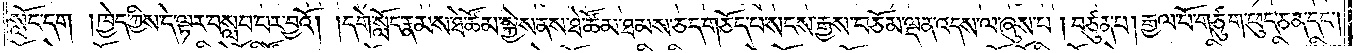སློང་དག །ཁྱེད་ཀྱིས་དེ་ལྟར་བསླབ་པར་བྱའོ། །དགེ་སློང་རྣམས་ཐེ་ཚོམ་སྐྱེས་ནས་ཐེ་ཚོམ་ཐམས་ཅད་གཅོད་པ་སངས་རྒྱས་བཅོམ་ལྡན་འདས་ལ་ཞུས་པ། བཙུན་པ། རྒྱལ་པོ་གཙུག་ཕུད་ཅན་དང༌།
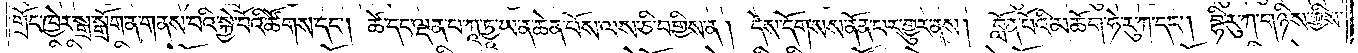གྲོང་ཁྱེར་སྒྲ་སྒྲོག་ན་གནས་པའི་སྐྱེ་བོའི་ཚོགས་དང༌། ཚེ་དང་ལྡན་པ་ཀཱ་ཏྱཱ་ཡ་ན་ཆེན་པོས་ལས་ཅི་བགྱིས་ན། དེས་དོག་སས་ནོན་པར་གྱུར་ནས། བློན་པོའི་མཆོག་ཧེ་རུ་ཀ་དང༌། བྷི་རུ་ཀ་གཉིས་ཀྱིས་
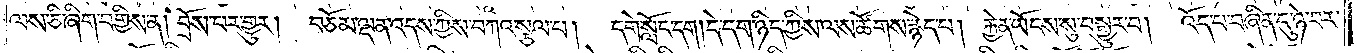ལས་ཅི་ཞིག་བགྱིས་ན། བྲོས་པར་གྱུར། བཅོམ་ལྡན་འདས་ཀྱིས་བཀའ་སྩལ་པ། དགེ་སློང་དག །དེ་དག་ཉིད་ཀྱིས་ལས་ཚོགས་རྙེད་པ། རྐྱེན་ཡོངས་སུ་བསྒྱུར་བ། འོད་པ་བཞིན་དུ་ཉེ་བར་
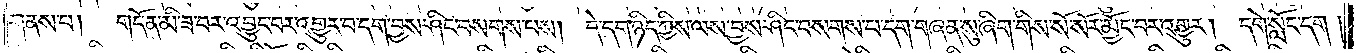གནས་པ། གདོན་མི་ཟ་བར་འབྱུང་བར་འགྱུར་བ་དག་བྱས་ཤིང་བསགས་པས། དེ་དག་ཉིད་ཀྱིས་ལས་བྱས་ཤིང་བསགས་པ་དག་གཞན་སུ་ཞིག་གིས་སོ་སོར་མྱོང་བར་འགྱུར། དགེ་སློང་དག །
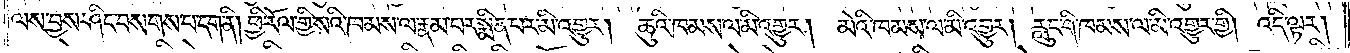ལས་བྱས་ཤིང་བསགས་པ་དག་ནི། ཕྱི་རོལ་གྱི་སའི་ཁམས་ལ་རྣམ་པར་སྨིན་པར་མི་འགྱུར། ཆུའི་ཁམས་ལ་མི་འགྱུར། མེའི་ཁམས་ལ་མི་འགྱུར། རླུང་གི་ཁམས་ལ་མི་འགྱུར་གྱི། འདི་ལྟར།
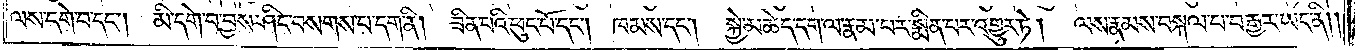ལས་དགེ་བ་དང༌། མི་དགེ་བ་བྱས་ཤིང་བསགས་པ་དག་ནི། ཟིན་པའི་ཕུང་པོ་དང༌། ཁམས་དང༌། སྐྱེ་མཆེད་དག་ལ་རྣམ་པར་སྨིན་པར་འགྱུར་ཏེ། ལས་རྣམས་བསྐལ་པ་བརྒྱར་ཡང་ནི༎
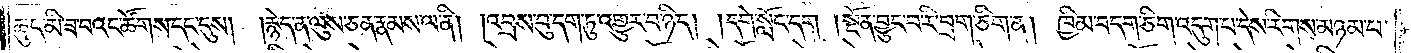ཆུད་མི་ཟ་བའང་ཚོགས་དང་དུས། །རྙེད་ན་ལུས་ཅན་རྣམས་ལ་ནི། །འབྲས་བུ་དག་ཏུ་འགྱུར་བ་ཉིད། །དགེ་སློང་དག །སྔོན་བྱུང་བ་རི་བྲག་ཅིག་ན།  ཁྱིམ་བདག་ཅིག་འདུག་པ་དེས་རིགས་མཉམ་པ་
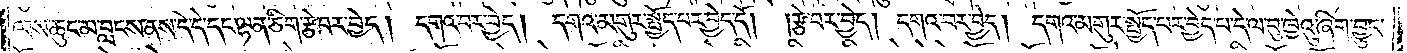ལས་ཆུང་མ་བླངས་ནས་དེ་དེ་དང་ལྷན་ཅིག་རྩེ་བར་བྱེད། དགའ་བར་བྱེད། དགའ་མགུར་སྤྱོད་པར་བྱེད་དོ། །རྩེ་བར་བྱེད། དགའ་བར་བྱེད། དགའ་མགུར་སྤྱོད་པར་བྱེད་པ་དེ་ལ་བུ་ཁྱེའུ་ཞིག་བྱུང་
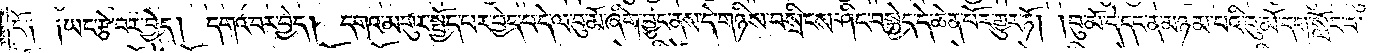ངོ་༑ ༑ཡང་རྩེ་བར་བྱེད། དགའ་བར་བྱེད། དགའ་མགུར་སྤྱོད་པར་བྱེད་པ་དེ་ལ་བུ་མོ་ཞིག་བྱུང་ནས་དེ་གཉིས་བསྲིངས་ཤིང་བསྐྱེད་དེ་ཆེན་པོར་གྱུར་ཏོ། །བུ་མོ་དེ་དང་ན་མཉམ་པའི་བུ་མོ་དག་སློང་བ་
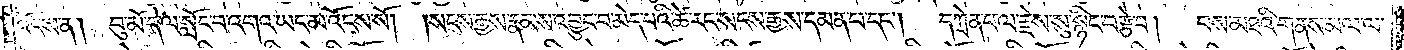འོངས་ན། བུ་མོ་དེ་ལ་སློང་བ་འགའ་ཡང་མ་འོངས་སོ། །སངས་རྒྱས་རྣམས་འབྱུང་བ་མེད་པའི་ཚེ་རང་སངས་རྒྱས་དམན་པ་དང༌། དཀྲེན་པ་ལ་རྗེས་སུ་སྙིང་བརྩེ་བ། བས་མཐའི་གནས་མལ་ལ་
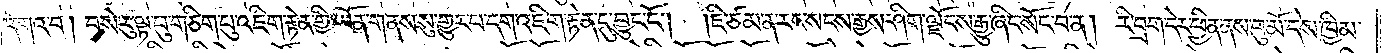དགའ་བ། བསེ་རུ་ལྟ་བུ་གཅིག་པུ་འཇིག་རྟེན་གྱི་ཡོན་གནས་སུ་གྱུར་པ་དག་འཇིག་རྟེན་དུ་བྱུང་ངོ༌། །ཇི་ཙམ་ན་རང་སངས་རྒྱས་ཤིག་ལྗོངས་རྒྱུ་ཞིང་སོང་བ་ན། རི་བྲག་དེར་ཕྱིན་ནས་བུ་མོ་དེས་ཁྱིམ་
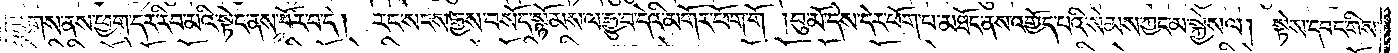ཕྱགས་ནས་ཕྱག་དར་རིབ་མའི་སྟེང་ནས་བོར་བ་དེ། རང་སངས་རྒྱས་བསོད་སྙོམས་ལ་རྒྱུ་བ་དེའི་མགོར་ཕོག་གོ །བུ་མོ་དེས་དེར་ཕོག་པ་མཐོང་ནས་འགྱོད་པའི་སེམས་ཀྱང་མ་སྐྱེས་ལ། སྟེས་དབང་གིས་
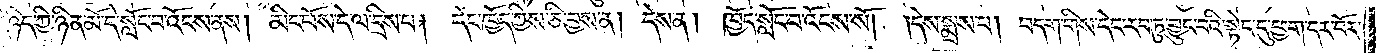དེ་ཉིད་ཀྱི་ཉིན་མོ་དེ་སློང་བ་འོངས་ནས། མིང་པོས་དེ་ལ་དྲིས་པ། དེང་ཁྱོད་ཀྱིས་ཅི་བྱས་ན། དེས་ན། ཁྱོད་སློང་བ་འོངས་སོ། །དེས་སྨྲས་པ། བདག་གིས་དེང་རབ་ཏུ་བྱུང་བའི་སྟེང་དུ་ཕྱག་དར་བོར་
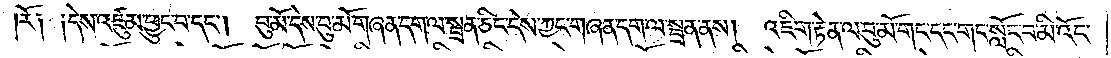རོ༑ ༑དེས་འཛུམ་ཕྱུང་བ་དང༌། བུ་མོ་དེས་བུ་མོ་གཞན་དག་ལ་སྦྲན་ཅིང་དེས་ཀྱང་གཞན་དག་ལ་སྦྲན་ནས། འཇིག་རྟེན་ལ་བུ་མོ་གང་དང་གང་སློང་བ་མི་འོང་
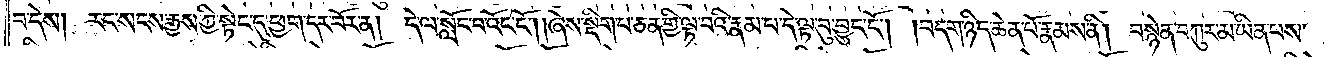བ་དེས། རང་སངས་རྒྱས་ཀྱི་སྟེང་དུ་ཕྱག་དར་བོར་ན། དེ་ལ་སློང་བ་འོང་ངོ༌། །ཞེས་སྡིག་པ་ཅན་གྱི་ལྟ་བའི་རྣམ་པ་དེ་ལྟ་བུ་བྱུང་ངོ༌། །བདག་ཉིད་ཆེན་པོ་རྣམས་ནི། བསྙེན་བཀུར་མ་ཡིན་པས་
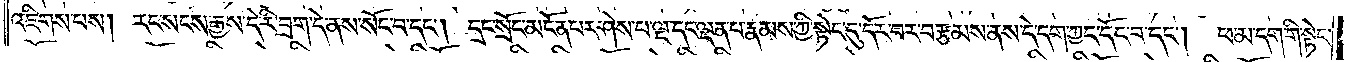འཇིགས་པས། རང་སངས་རྒྱས་དེ་རི་བྲག་དེ་ནས་སོང་བ་དང༌། དྲང་སྲོང་མངོན་པར་ཤེས་པ་ལྔ་དང་ལྡན་པ་རྣམས་ཀྱི་སྟེང་དུ་དོར་བར་བརྩམས་ནས་དེ་དག་ཀྱང་དོང་བ་དང༌། ཕ་མ་དག་གི་སྟེང་
